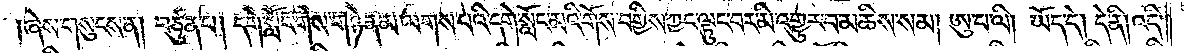།ཞེས་གསུངས་ན། བཙུན་པ། དགེ་སློང་གིས་གཉེན་མ་ལགས་པའི་དགེ་སློང་མའི་གོས་བགྱིས་ཀྱང་ལྟུང་བར་མི་འགྱུར་བ་མཆིས་སམ། ཨུ་པ་ལི། ཡོད་དེ། དེ་ནི། འདི་
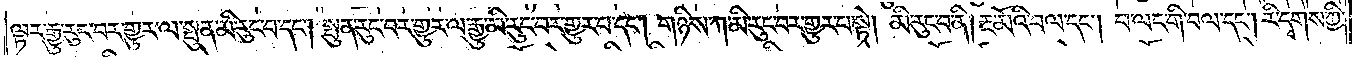ལྟར་རྒྱུ་རུང་བར་གྱུར་ལ་སྤུན་མི་རུང་བ་དང༌། སྤུན་རུང་བར་གྱུར་ལ་རྒྱུ་མི་རུང་བར་གྱུར་པ་དང༌། གཉིས་ཀ་མི་རུང་བར་གྱུར་བ་སྟེ། མི་རུང་བ་ནི། རྔ་མོའི་བལ་དང༌། བ་ལང་གི་བལ་དང༌། རི་དྭགས་ཀྱི་
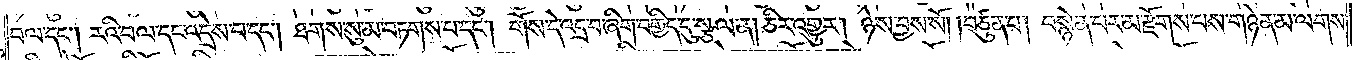བལ་དང༌། རའི་བལ་དང་འདྲེས་པ་དང༌། ཐགས་སུ་མ་བཏགས་པ་དང༌། གོས་དེ་འདྲ་བ་ཞིག་བགྱིད་དུ་སྩལ་ན། ཅིར་འགྱུར། ཉེས་བྱས་སོ། །བཙུན་པ། བསྙེན་པར་མ་རྫོགས་པས་གཉེན་མ་ལགས་
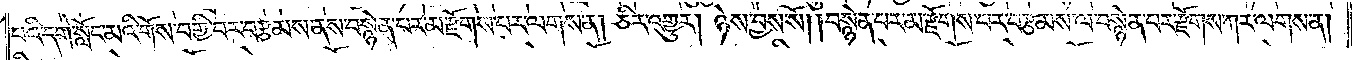པའི་དགེ་སློང་མའི་གོས་བགྱི་བར་བརྩམས་ནས་བསྙེན་པར་མ་རྫོགས་པར་ལགས་ན། ཅིར་འགྱུར། ཉེས་བྱས་སོ། །བསྙེན་པར་མ་རྫོགས་པར་བརྩམས་ལ་བསྙེན་པར་རྫོགས་ཀར་ལགས་ན།
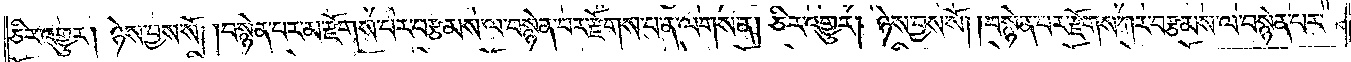ཅིར་འགྱུར། ཉེས་བྱས་སོ། །བསྙེན་པར་མ་རྫོགས་པར་བརྩམས་ལ་བསྙེན་པར་རྫོགས་པ་ན་ལགས་ན། ཅིར་འགྱུར། ཉེས་བྱས་སོ། །བསྙེན་པར་རྫོགས་ཀར་བརྩམས་ལ་བསྙེན་པར་
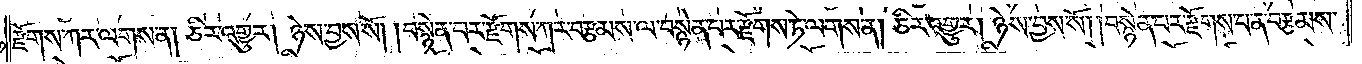རྫོགས་ཀར་ལགས་ན། ཅིར་འགྱུར། ཉེས་བྱས་སོ། །བསྙེན་པར་རྫོགས་ཀར་བརྩམས་ལ་བསྙེན་པར་རྫོགས་ཏེ་ལགས་ན། ཅིར་འགྱུར། ཉེས་བྱས་སོ། །བསྙེན་པར་རྫོགས་པ་ན་བརྩམས་
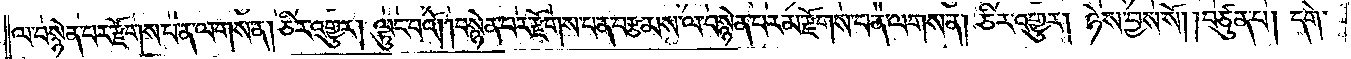ལ་བསྙེན་པར་རྫོགས་པ་ན་ལགས་ན། ཅིར་འགྱུར། ལྟུང་བའོ། །བསྙེན་པར་རྫོགས་པ་ན་བརྩམས་ལ་བསྙེན་པར་མ་རྫོགས་པ་ན་ལགས་ན། ཅིར་འགྱུར། ཉེས་བྱས་སོ། །བཙུན་པ། དགེ་
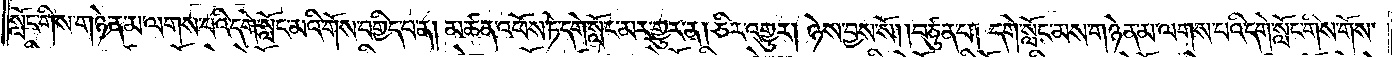སློང་གིས་གཉེན་མ་ལགས་པའི་དགེ་སློང་མའི་གོས་བགྱིད་པ་ན། མཚན་འཕོས་ཏེ་དགེ་སློང་མར་གྱུར་ན། ཅིར་འགྱུར། ཉེས་བྱས་སོ། །བཙུན་པ། དགེ་སློང་མས་གཉེན་མ་ལགས་པའི་དགེ་སློང་གིས་གོས་
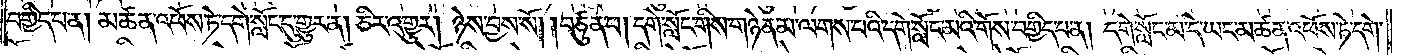བགྱིད་པ་ན། མཚན་འཕོས་ཏེ་དགེ་སློང་དུ་གྱུར་ན། ཅིར་འགྱུར། ཉེས་བྱས་སོ། །བཙུན་པ། དགེ་སློང་གིས་གཉེན་མ་ལགས་པའི་དགེ་སློང་མའི་གོས་བགྱིད་པ་ན། དགེ་སློང་མ་དེ་ཡང་མཚན་འཕོས་ཏེ་དགེ་
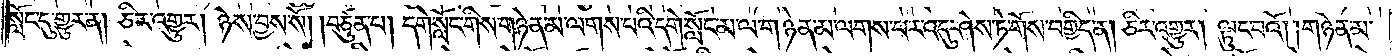སློང་དུ་གྱུར་ན། ཅིར་འགྱུར། ཉེས་བྱས་སོ། །བཙུན་པ། དགེ་སློང་གིས་གཉེན་མ་ལགས་པའི་དགེ་སློང་མ་ལ་གཉེན་མ་ལགས་པར་འདུ་ཤེས་ཏེ་གོས་བགྱིད་ན། ཅིར་འགྱུར། ལྟུང་བའོ། །གཉེན་མ་
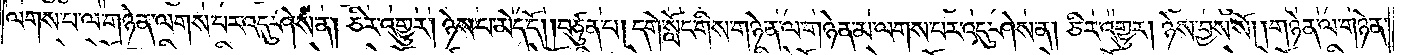ལགས་པ་ལ་གཉེན་ལགས་པར་འདུ་ཤེས་ན། ཅིར་འགྱུར། ཉེས་པ་མེད་དོ། །བཙུན་པ། དགེ་སློང་གིས་གཉེན་ལ་གཉེན་མ་ལགས་པར་འདུ་ཤེས་ན། ཅིར་འགྱུར། ཉེས་བྱས་སོ། །གཉེན་ལ་གཉེན་
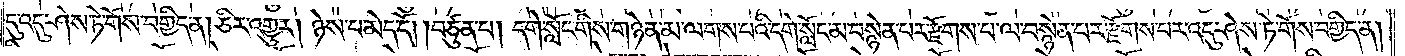དུ་འདུ་ཤེས་ཏེ་གོས་བགྱིད་ན། ཅིར་འགྱུར། ཉེས་པ་མེད་དོ། །བཙུན་པ། དགེ་སློང་གིས་གཉེན་མ་ལགས་པའི་དགེ་སློང་མ་བསྙེན་པར་རྫོགས་པ་ལ་བསྙེན་པར་རྫོགས་པར་འདུ་ཤེས་ཏེ་གོས་བགྱིད་ན།
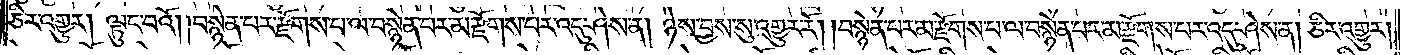ཅིར་འགྱུར། ལྟུང་བའོ། །བསྙེན་པར་རྫོགས་པ་ལ་བསྙེན་པར་མ་རྫོགས་པར་འདུ་ཤེས་ན། ཉེས་བྱས་སུ་འགྱུར་རོ། །བསྙེན་པར་མ་རྫོགས་པ་ལ་བསྙེན་པར་མ་རྫོགས་པར་འདུ་ཤེས་ན། ཅིར་འགྱུར།
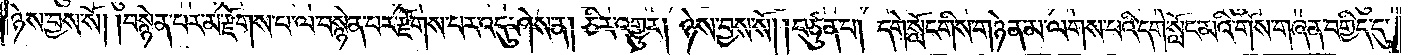ཉེས་བྱས་སོ། །བསྙེན་པར་མ་རྫོགས་པ་ལ་བསྙེན་པར་རྫོགས་པར་འདུ་ཤེས་ན། ཅིར་འགྱུར། ཉེས་བྱས་སོ། །བཙུན་པ། དགེ་སློང་གིས་གཉེན་མ་ལགས་པའི་དགེ་སློང་མའི་གོས་གཞན་བགྱིད་དུ་
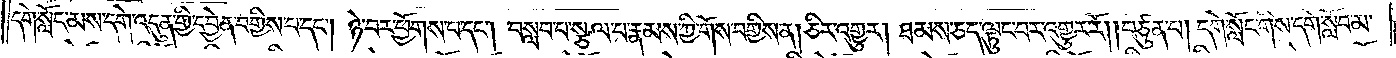དགེ་སློང་མས་དགེ་འདུན་གྱི་དབྱེན་བགྱིས་པ་དང༌། ཉེ་བར་ཕྱོགས་པ་དང༌། བསླབ་པ་སྩལ་བ་རྣམས་ཀྱིས་གོས་བགྱིས་ན། ཅིར་འགྱུར། ཐམས་ཅད་ལྟུང་བར་འགྱུར་རོ། །བཙུན་པ། དགེ་སློང་གིས་དགེ་སློབ་མ་
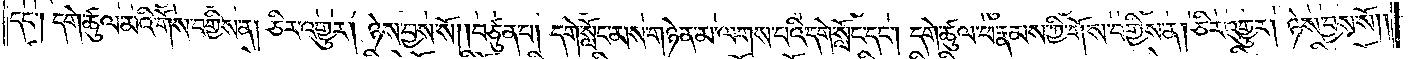དང༌། དགེ་ཚུལ་མའི་གོས་བགྱིས་ན། ཅིར་འགྱུར། ཉེས་བྱས་སོ། །བཙུན་པ། དགེ་སློང་མས་གཉེན་མ་ལགས་པའི་དགེ་སློང་དང༌། དགེ་ཚུལ་ཕ་རྣམས་ཀྱི་གོས་བགྱིས་ན། ཅིར་འགྱུར། ཉེས་བྱས་སོ། །
